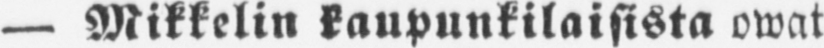— Mikkelin kaupunkilaisista owat
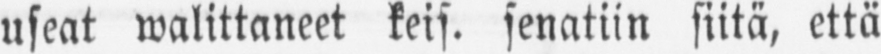useat walittaneet keis. senatiin siitä, että
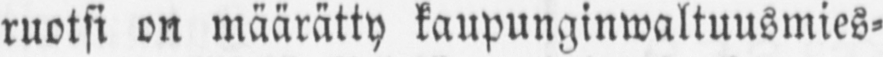ruotsi on määrätty kaupunginwaltuusmies-
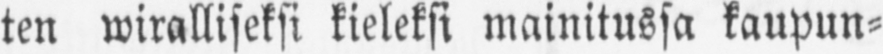ten wiralliseksi kieleksi mainitussa kaupun-
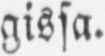gissa.
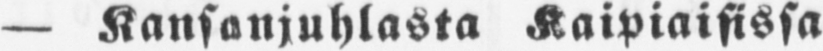— Kansanjuhlasta Kaipiaisissa
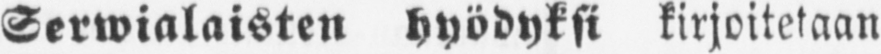Serwialaisten hyödyksi kirjoitetaan
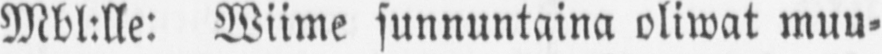Mbl:lle: Wiime sunnuntaina oliwat muu-
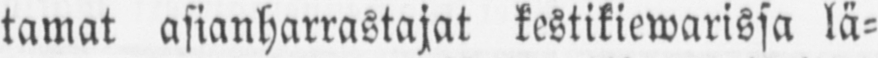tamat asianharrastajat kestikiewarissa lä-
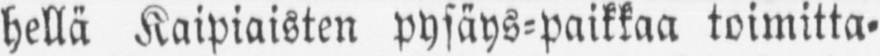hellä Kaipiaisten pysäys-paikkaa toimitta-
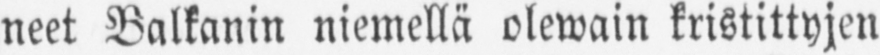neet Balkanin niemellä olewain kristittyjen
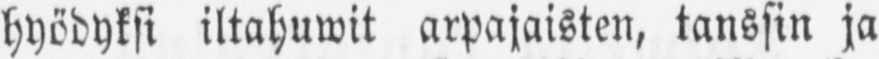hyödyksi iltahuwit arpajaisten, tanssin ja
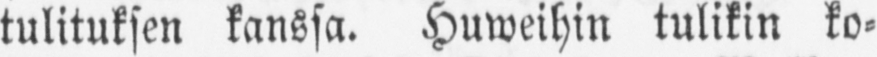tulituksen kanssa. Huweihin tulikin ko-
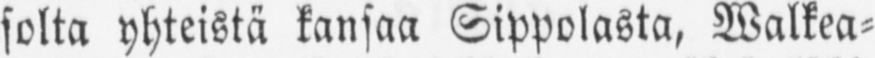solta yhteistä kansaa Sippolasta, Walkea-
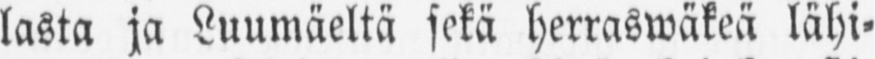lasta ja Luumäeltä sekä herraswäkeä lähi-
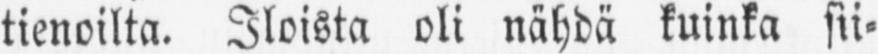tienoilta. Iloista oli nähdä kuinka sii-
